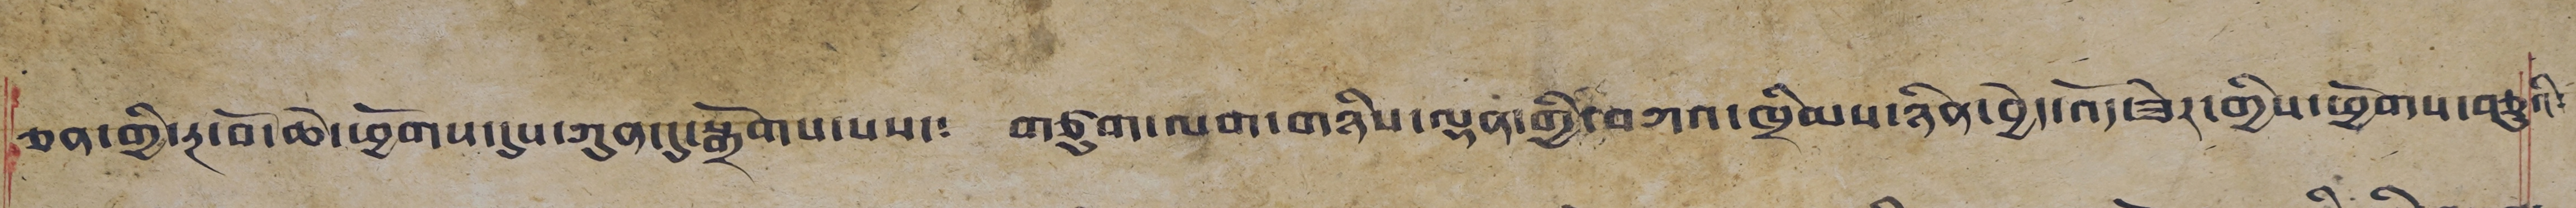ཅན་གྱི་རྔ་བོ་ཆེ་ཕྱོགས་དུས་ཀུན་དུ་སྒྲོགས་པས་༴ གཙུག་ལག་གཉིས་ལྡན་གྱི་བཀའ་ཁྲིམས་ཉིན་བྱེད་འོད་ཟེར་གྱིས་ཕྱོགས་བཅུའི༴
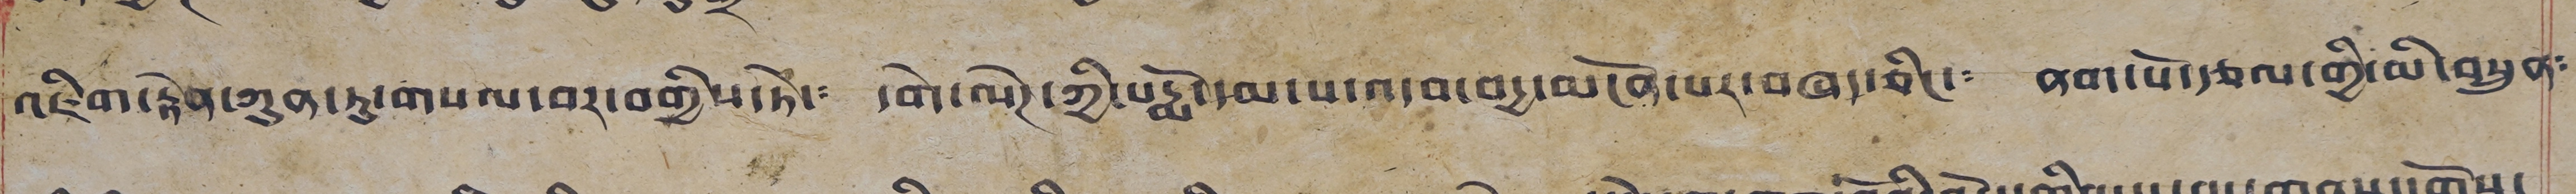འཇིག་རྟེན་ཀུན་ཏུ་གསལ་བར་བགྱིས་ཏེ་༴ དགེ་ལེཊ་ཀྱི་པདྨོ་དམ་པ་འདབ་བདྱ་མངོན་པར་བཞད་ཅིང་༴ ནག་པོ་རྩལ་གྱི་མི་བསྲུན༴
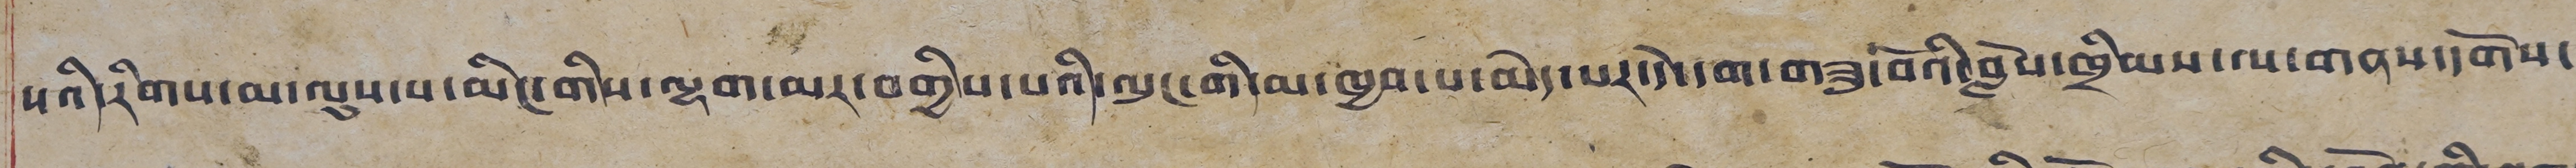པའི་རིགས་མ་ལུས་པ་མིང་གིས་ལྷག་མར་བགྱིས་པའི་ལུང་གི་མ་ཁྱབ་པ་མེད་པར་དེ་དག་གཟུ་བོའི་བློས་ཁྲིམས་ལ་གནས་དགོས་
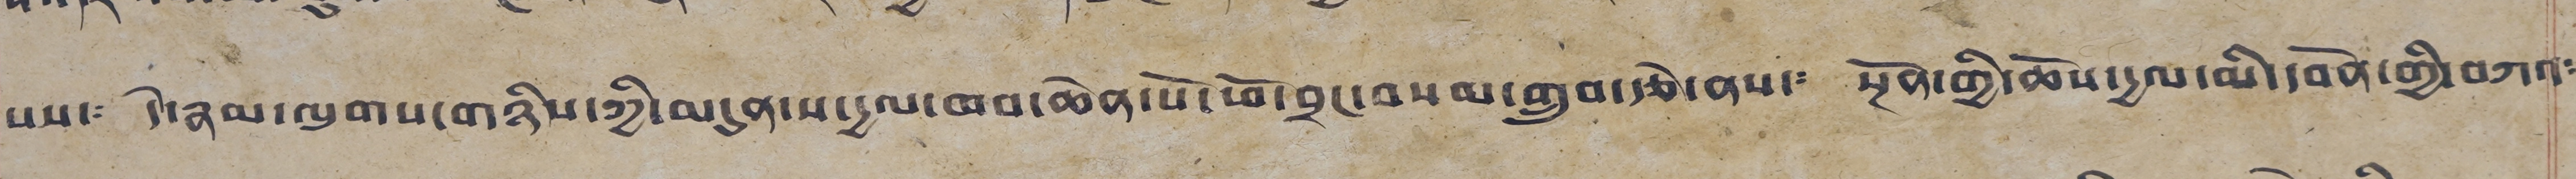པས་༴ དེ་རྣམ་ལུགས་གཉིས་ཀྱི་མདུན་པ་དྱལ་ཁབ་ཆེན་པོ་ཕོ་བྲང་བསམ་གྲུབ་རྩེ་ནས་༴ སྔོན་གྱི་ཆོས་དྱལ་མི་དབོན་གྱི་བཀའ༴
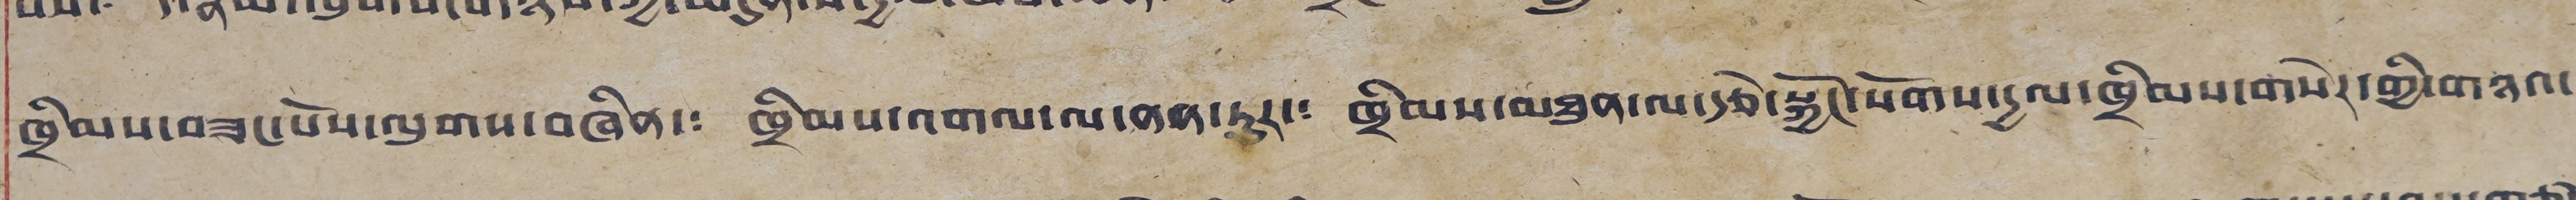ཁྲིམས་བཟང་པོས་ལུགས་བཞིན་༴ ཁྲིམས་འགལ་ལ་ནན་ཏུར་༴ ཁྲིམས་མཐུན་ལ་རྩེ་སྐྱོང་སོགས་དྱལ་ཁྲིམས་གསེར་གྱི་གཉའ་
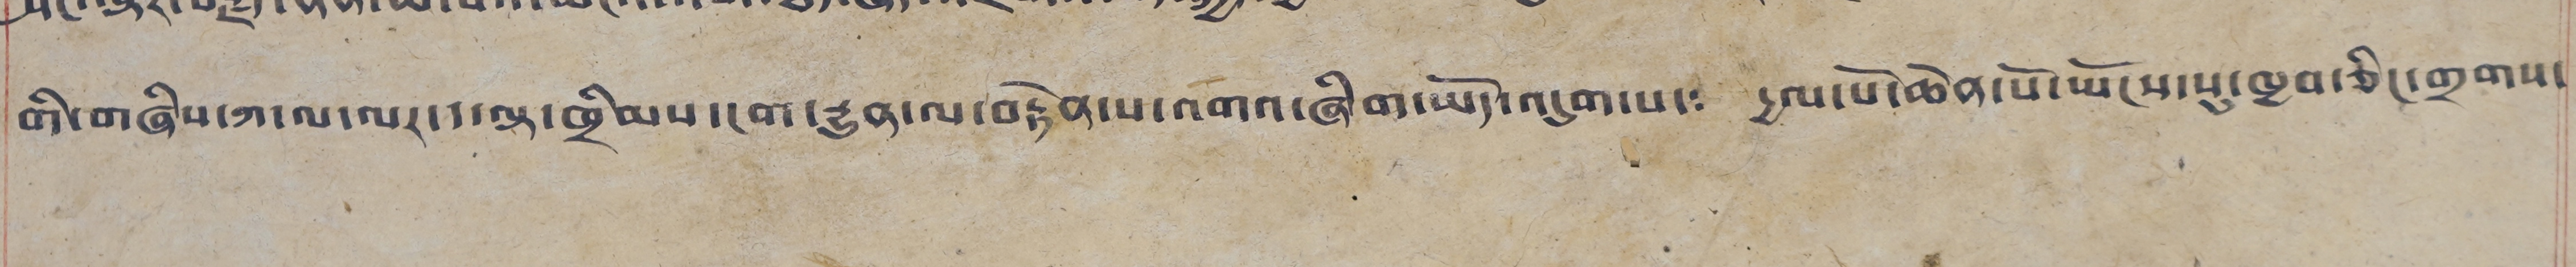གི་གཞིས་ཀ་ལ་ལར་ད་ལྟ་ཁྲིམས་ངག་རྒྱུན་ལ་བརྟེན་པ་འགའ་ཞིག་ཡོད་འདུག་པ་༴ དྱལ་པོ་ཆེན་པོ་ཡོངས་པ་ཁྱབ་ཅིང་གྲགས་
